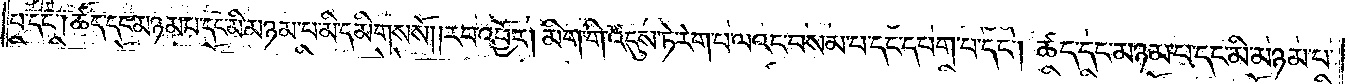པ་དང༌། ཚད་དང་མཉམ་པ་དང་མི་མཉམ་པ་མི་དམིགས་སོ། །རབ་འབྱོར། མིག་གི་འདུས་ཏེ་རེག་པ་ལའང་བསམ་པ་དང་དཔག་པ་དང༌། ཚད་དང་མཉམ་པ་དང་མི་མཉམ་པ་
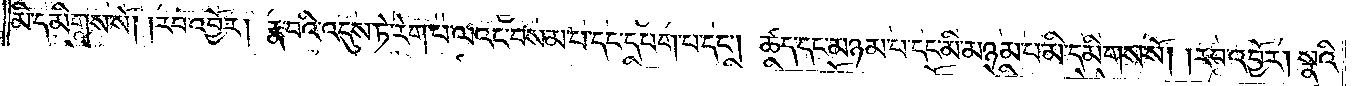མི་དམིགས་སོ། །རབ་འབྱོར། རྣ་བའི་འདུས་ཏེ་རེག་པ་ལའང་བསམ་པ་དང་དཔག་པ་དང༌། ཚད་དང་མཉམ་པ་དང་མི་མཉམ་པ་མི་དམིགས་སོ། །རབ་འབྱོར། སྣའི་
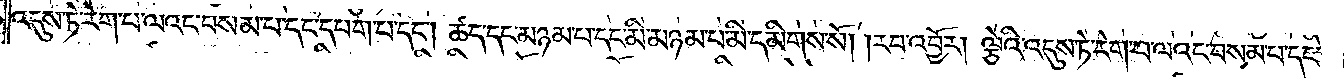འདུས་ཏེ་རེག་པ་ལའང་བསམ་པ་དང་དཔག་པ་དང༌། ཚད་དང་མཉམ་པ་དང་མི་མཉམ་པ་མི་དམིགས་སོ། །རབ་འབྱོར། ལྕེའི་འདུས་ཏེ་རེག་པ་ལའང་བསམ་པ་དང་
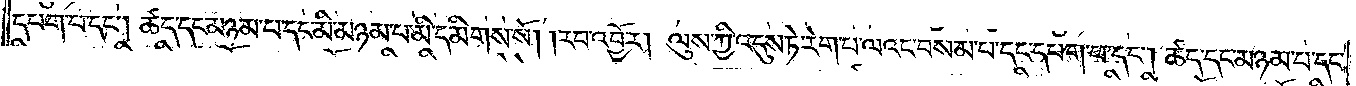དཔག་པ་དང༌། ཚད་དང་མཉམ་པ་དང་མི་མཉམ་པ་མི་དམིགས་སོ། །རབ་འབྱོར། ལུས་ཀྱི་འདུས་ཏེ་རེག་པ་ལའང་བསམ་པ་དང་དཔག་པ་དང༌། ཚད་དང་མཉམ་པ་དང་
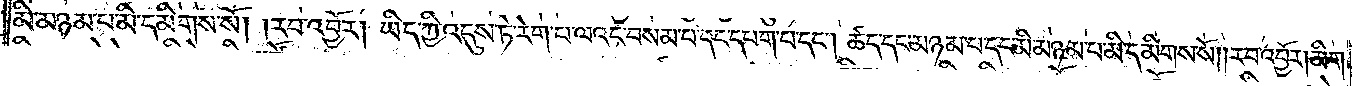མི་མཉམ་པ་མི་དམིགས་སོ། །རབ་འབྱོར། ཡིད་ཀྱི་འདུས་ཏེ་རེག་པ་ལའང་བསམ་པ་དང་དཔག་པ་དང༌། ཚད་དང་མཉམ་པ་དང་མི་མཉམ་པ་མི་དམིགས་སོ། །རབ་འབྱོར། མིག་
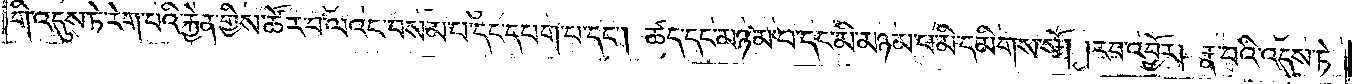གི་འདུས་ཏེ་རེག་པའི་རྐྱེན་གྱིས་ཚོར་བ་ལའང་བསམ་པ་དང་དཔག་པ་དང༌། ཚད་དང་མཉམ་པ་དང་མི་མཉམ་པ་མི་དམིགས་སོ། །རབ་འབྱོར། རྣ་བའི་འདུས་ཏེ་
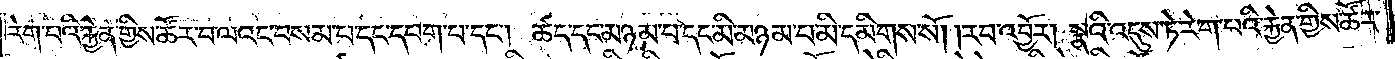རེག་པའི་རྐྱེན་གྱིས་ཚོར་བ་ལའང་བསམ་པ་དང་དཔག་པ་དང༌། ཚད་དང་མཉམ་པ་དང་མི་མཉམ་པ་མི་དམིགས་སོ། །རབ་འབྱོར། སྣའི་འདུས་ཏེ་རེག་པའི་རྐྱེན་གྱིས་ཚོར་
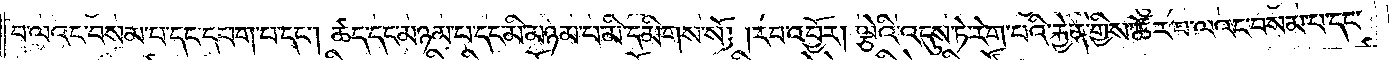བ་ལའང་བསམ་པ་དང་དཔག་པ་དང༌། ཚད་དང་མཉམ་པ་དང་མི་མཉམ་པ་མི་དམིགས་སོ། །རབ་འབྱོར། ལྕེའི་འདུས་ཏེ་རེག་པའི་རྐྱེན་གྱིས་ཚོར་བ་ལའང་བསམ་པ་དང་
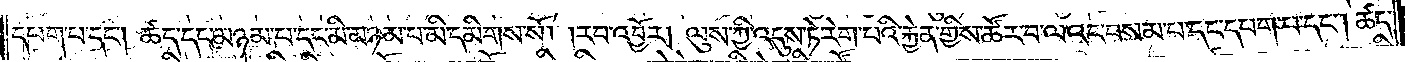དཔག་པ་དང༌། ཚད་དང་མཉམ་པ་དང་མི་མཉམ་པ་མི་དམིགས་སོ། །རབ་འབྱོར། ལུས་ཀྱི་འདུས་ཏེ་རེག་པའི་རྐྱེན་གྱིས་ཚོར་བ་ལའང་བསམ་པ་དང་དཔག་པ་དང༌། ཚད་
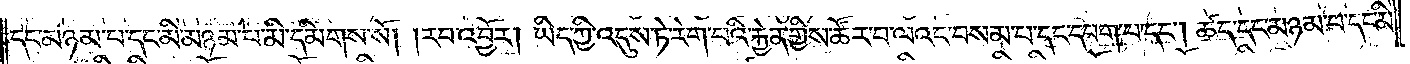དང་མཉམ་པ་དང་མི་མཉམ་པ་མི་དམིགས་སོ། །རབ་འབྱོར། ཡིད་ཀྱི་འདུས་ཏེ་རེག་པའི་རྐྱེན་གྱིས་ཚོར་བ་ལའང་བསམ་པ་དང་དཔག་པ་དང༌། ཚད་དང་མཉམ་པ་དང་མི་
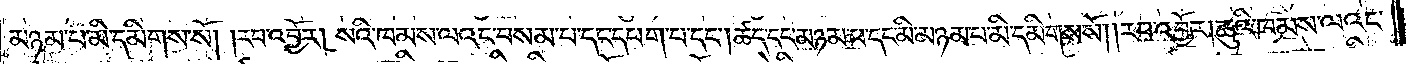མཉམ་པ་མི་དམིགས་སོ། །རབ་འབྱོར། སའི་ཁམས་ལའང་བསམ་པ་དང་དཔག་པ་དང༌། ཚད་དང་མཉམ་པ་དང་མི་མཉམ་པ་མི་དམིགས་སོ། །རབ་འབྱོར། ཆུའི་ཁམས་ལའང་
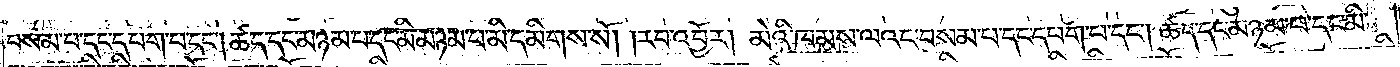བསམ་པ་དང་དཔག་པ་དང༌། ཚད་དང་མཉམ་པ་དང་མི་མཉམ་པ་མི་དམིགས་སོ། །རབ་འབྱོར། མེའི་ཁམས་ལའང་བསམ་པ་དང་དཔག་པ་དང༌། ཚད་དང་མཉམ་པ་དང་མི་
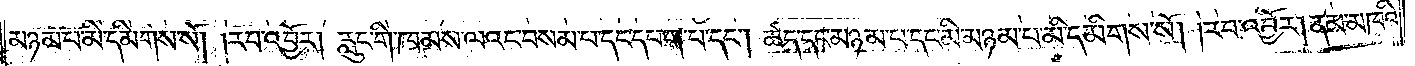མཉམ་པ་མི་དམིགས་སོ། །རབ་འབྱོར། རླུང་གི་ཁམས་ལའང་བསམ་པ་དང་དཔག་པ་དང༌། ཚད་དང་མཉམ་པ་དང་མི་མཉམ་པ་མི་དམིགས་སོ། །རབ་འབྱོར། ནམ་མཁའི་
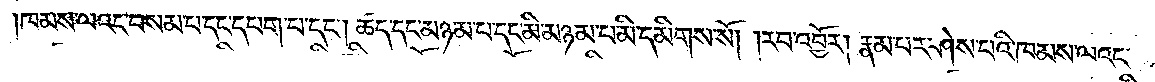ཁམས་ལའང་བསམ་པ་དང་དཔག་པ་དང༌། ཚད་དང་མཉམ་པ་དང་མི་མཉམ་པ་མི་དམིགས་སོ། །རབ་འབྱོར། རྣམ་པར་ཤེས་པའི་ཁམས་ལའང་
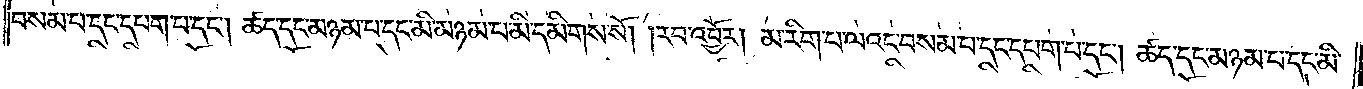བསམ་པ་དང་དཔག་པ་དང༌། ཚད་དང་མཉམ་པ་དང་མི་མཉམ་པ་མི་དམིགས་སོ། །རབ་འབྱོར། མ་རིག་པ་ལའང་བསམ་པ་དང་དཔག་པ་དང༌། ཚད་དང་མཉམ་པ་དང་མི་
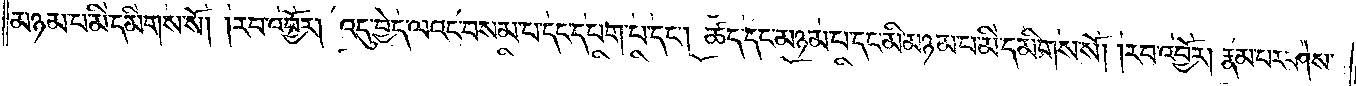མཉམ་པ་མི་དམིགས་སོ། །རབ་འབྱོར། འདུ་བྱེད་ལའང་བསམ་པ་དང་དཔག་པ་དང༌། ཚད་དང་མཉམ་པ་དང་མི་མཉམ་པ་མི་དམིགས་སོ། །རབ་འབྱོར། རྣམ་པར་ཤེས་
